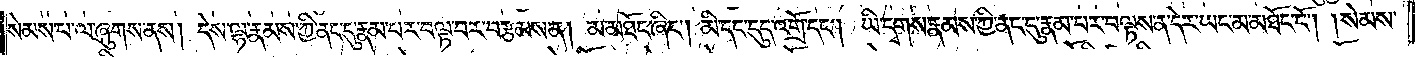སེམས་པ་ལ་ཞུགས་ནས། དེས་ལྷ་རྣམས་ཀྱི་ནང་དུ་རྣམ་པར་བལྟ་བར་བརྩམས་ན། མ་མཐོང་ཞིང༌། མི་དང་དུད་འགྲོ་དང༌། ཡི་དྭགས་རྣམས་ཀྱི་ནང་དུ་རྣམ་པར་བལྟས་ན་དེར་ཡང་མ་མཐོང་ངོ༌། །སེམས་
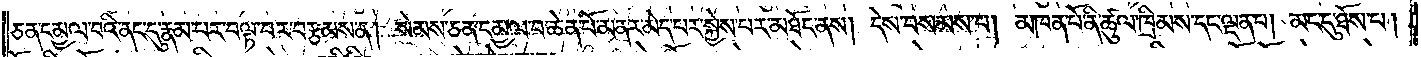ཅན་དམྱལ་བའི་ནང་དུ་རྣམ་པར་བལྟ་བར་བརྩམས་ན། སེམས་ཅན་དམྱལ་བ་ཆེན་པོ་མནར་མེད་པར་སྐྱེས་པར་མཐོང་ནས། དེས་བསམས་པ། མཁན་པོ་ནི་ཚུལ་ཁྲིམས་དང་ལྡན་པ། མང་དུ་ཐོས་པ།
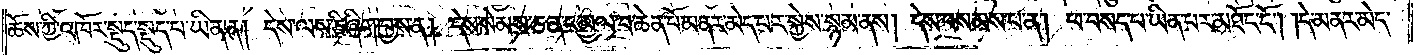ཆོས་ཀྱི་འཁོར་སྡུད་སྡུད་པ་ཡིན་ན། དེས་ལས་ཅི་ཞིག་བྱས་ན། དེས་སེམས་ཅན་དམྱལ་བ་ཆེན་པོ་མནར་མེད་པར་སྐྱེས་སྙམ་ནས། དེས་བསམས་པ་ན། ཕ་བསད་པ་ཡིན་པར་མཐོང་ངོ༌། །དེ་མནར་མེད་
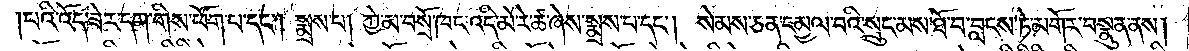།པའི་འོད་ཟེར་དག་གིས་ཕོག་པ་དང༌། སྨྲས་པ། ཀྱེ་མ་བསྲོ་ཁང་འདི་མེ་རེ་ཚ་ཞེས་སྨྲས་པ་དང༌། སེམས་ཅན་དམྱལ་བའི་སྲུང་མས་ཐོ་བ་བླངས་ཏེ་མགོར་བསྣུན་ནས།
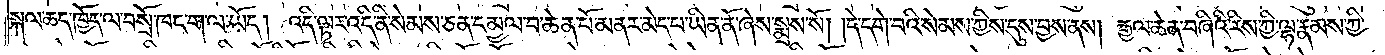སྐལ་ཆད་ཁྱོད་ལ་བསྲོ་ཁང་ག་ལ་ཡོད། འདི་ལྟར་འདི་ནི་སེམས་ཅན་དམྱལ་བ་ཆེན་པོ་མནར་མེད་པ་ཡིན་ནོ་ཞེས་སྨྲས་སོ། །དེ་དགེ་བའི་སེམས་ཀྱིས་དུས་བྱས་ནས། རྒྱལ་ཆེན་བཞིའི་རིས་ཀྱི་ལྷ་རྣམས་ཀྱི་
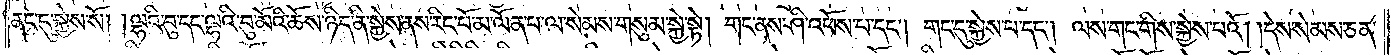ནང་དུ་སྐྱེས་སོ། །ལྷའི་བུ་དང་ལྷའི་བུ་མོའི་ཆོས་ཉིད་ནི་སྐྱེས་ནས་རིང་པོ་མ་ལོན་པ་ལ་སེམས་གསུམ་སྐྱེ་སྟེ། གང་ནས་ཤི་འཕོས་པ་དང༌། གང་དུ་སྐྱེས་པ་དང༌། ལས་གང་གིས་སྐྱེས་པའོ། །དེས་སེམས་ཅན་
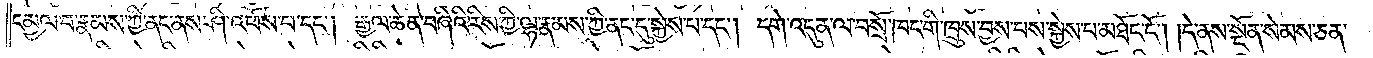དམྱལ་བ་རྣམས་ཀྱི་ནང་ནས་ཤི་འཕོས་པ་དང༌། རྒྱལ་ཆེན་བཞིའི་རིས་ཀྱི་ལྷ་རྣམས་ཀྱི་ནང་དུ་སྐྱེས་པ་དང༌། དགེ་འདུན་ལ་བསྲོ་ཁང་གི་ཁྲུས་བྱས་པས་སྐྱེས་པ་མཐོང་ངོ༌། །དེ་ནས་སྔོན་སེམས་ཅན་
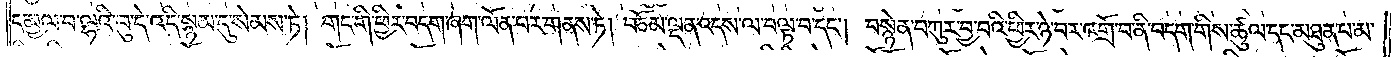དམྱལ་བ་ལྷའི་བུ་དེ་འདི་སྙམ་དུ་སེམས་ཏེ། གང་གི་ཕྱིར་བདག་ཞག་ལོན་པར་གནས་ཏེ། བཅོམ་ལྡན་འདས་ལ་བལྟ་བ་དང༌། བསྙེན་བཀུར་བྱ་བའི་ཕྱིར་ཉེ་བར་འགྲོ་བ་ནི་བདག་གིས་ཚུལ་དང་མཐུན་པ་མ་
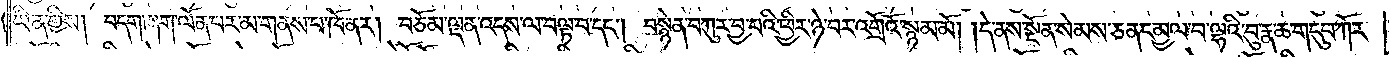ཡིན་གྱིས། བདག་ཞག་ལོན་པར་མ་གནས་པ་ཁོ་ནར། བཅོམ་ལྡན་འདས་ལ་བལྟ་བ་དང༌། བསྙེན་བཀུར་བྱ་བའི་ཕྱིར་ཉེ་བར་འགྲོའོ་སྙམ་མོ། །དེ་ནས་སྔོན་སེམས་ཅན་དམྱལ་བ་ལྷའི་བུ་རྣ་ཆ་གདུབ་ཀོར་
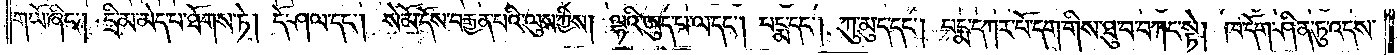གཡོ་ཞིང༌། དྲི་མ་མེད་པ་ཐོགས་ཏེ། དོ་ཤལ་དང༌། སེ་མོ་དོས་བརྒྱན་པའི་ལུས་ཀྱིས། ལྷའི་ཨུད་པ་ལ་དང༌། པདྨ་དང༌། ཀུ་མུད་དང༌། པདྨ་དཀར་པོ་དག་གིས་ཐུ་བ་བཀང་སྟེ། ཁ་དོག་ཤིན་ཏུ་འདས་
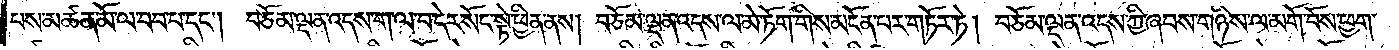པས་མཚན་མོ་ལ་བབ་པ་དང༌། བཅོམ་ལྡན་འདས་ག་ལ་བ་དེར་སོང་སྟེ་ཕྱིན་ནས། བཅོམ་ལྡན་འདས་ལ་མེ་ཏོག་གིས་མངོན་པར་གཏོར་ཏེ། བཅོམ་ལྡན་འདས་ཀྱི་ཞབས་གཉིས་ལ་མགོ་བོས་ཕྱག་
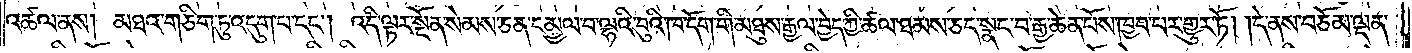འཚལ་ནས། མཐའ་གཅིག་ཏུ་འདུག་པ་དང༌། འདི་ལྟར་སྔོན་སེམས་ཅན་དམྱལ་བ་ལྷའི་བུའི་ཁ་དོག་གི་མཐུས་རྒྱལ་བྱེད་ཀྱི་ཚལ་ཐམས་ཅད་སྣང་བ་རྒྱ་ཆེན་པོས་ཁྱབ་པར་གྱུར་ཏོ། །དེ་ནས་བཅོམ་ལྡན་
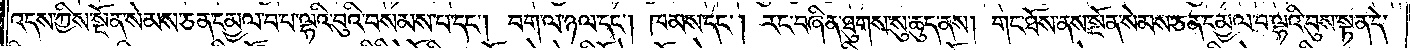འདས་ཀྱིས་སྔོན་སེམས་ཅན་དམྱལ་བ་པ་ལྷའི་བུའི་བསམས་པ་དང༌། བག་ལ་ཉལ་དང༌། ཁམས་དང༌། རང་བཞིན་ཐུགས་སུ་ཆུད་ནས། གང་ཐོས་ནས་སྔོན་སེམས་ཅན་དམྱལ་བ་ལྷའི་བུས་སྟན་དེ་
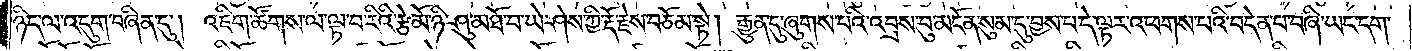ཉིད་ལ་འདུག་བཞིན་དུ། འཇིག་ཚོགས་ལ་ལྟ་བ་རིའི་རྩེ་མོ་ཉི་ཤུ་མཐོ་བ་ཡེ་ཤེས་ཀྱི་རྡོ་རྗེས་བཅོམ་སྟེ། རྒྱུན་དུ་ཞུགས་པའི་འབྲས་བུ་མངོན་སུམ་དུ་བྱས་པ་དེ་ལྟར་འཕགས་པའི་བདེན་པ་བཞི་ཡང་དག་
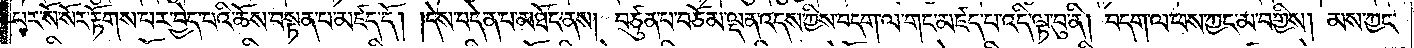པར་སོ་སོར་རྟོགས་པར་བྱེད་པའི་ཆོས་བསྟན་པ་མཛད་དོ། །དེས་བདེན་པ་མཐོང་ནས། བཙུན་པ་བཅོམ་ལྡན་འདས་ཀྱིས་བདག་ལ་གང་མཛད་པ་འདི་ལྟ་བུ་ནི། བདག་ལ་ཕས་ཀྱང་མ་བགྱིས། མས་ཀྱང་
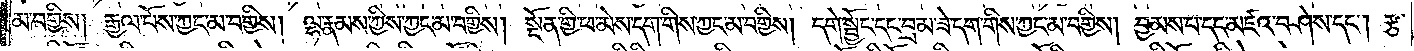མ་བགྱིས། རྒྱལ་པོས་ཀྱང་མ་བགྱིས། ལྷ་རྣམས་ཀྱིས་ཀྱང་མ་བགྱིས། སྔོན་གྱི་ཕ་མེས་དག་གིས་ཀྱང་མ་བགྱིས། དགེ་སྦྱོང་དང་བྲམ་ཟེ་དག་གིས་ཀྱང་མ་བགྱིས། བྱམས་པ་དང་མཛའ་བཤེས་དང༌། རྩ་
